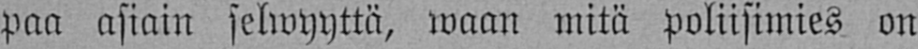paa asiain selwyyttä, waan mitä poliisimies on
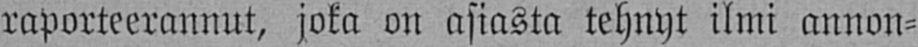raporteerannut, joka on asiasta tehnyt ilmi annon-
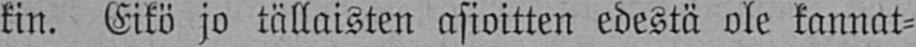kin. Eikö jo tällaisten asioitten edestä ole kannat-
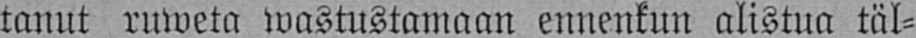tanut ruweta wastustamaan ennenkun alistua täl-
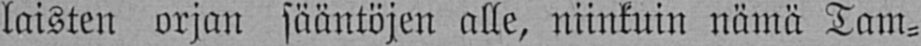laisten orjan sääntöjen alle, niinkuin nämä Tam-
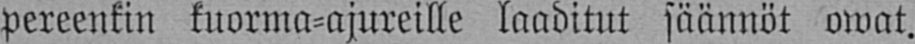pereenkin kuorma-ajureille laaditut säännöt owat.
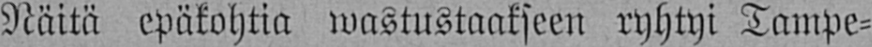Näitä epäkohtia wastustaakseen ryhtyi Tampe-
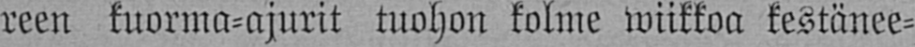reen kuorma-ajurit tuohon kolme wiikkoa kestänee-
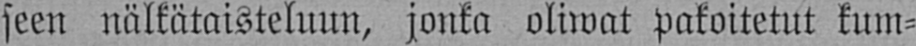seen nälkätaisteluun, jonka oliwat pakoitetut kum-
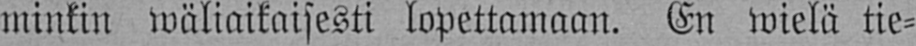minkin wäliaikaisesti lopettamaan. En wielä tie-
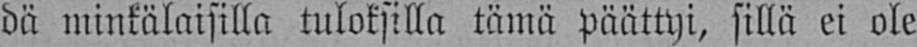dä minkälaisilla tuloksilla tämä päättyi, sillä ei ole
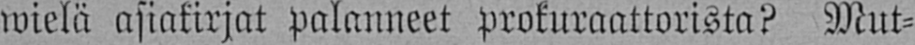wielä asiakirjat palanneet prokuraattorista? Mut-
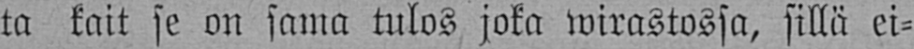ta kait se on sama tulos joka wirastossa, sillä ei-
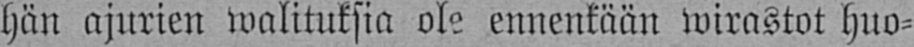hän ajurien walituksia ole ennenkään wirastot huo-
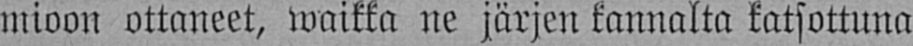mioon ottaneet, waikka ne järjen kannalta katsottuna
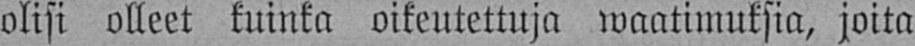olisi olleet kuinka oikeutettuja waatimuksia, joita
